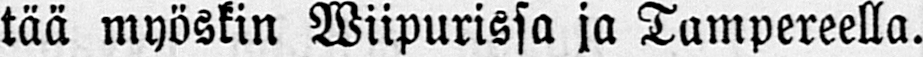tää myöskin Wiipurissa ja Tampereella.
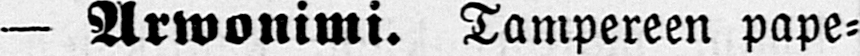— Arwonimi. Tampereen pape-
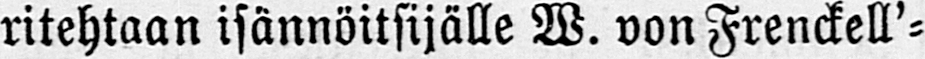ritehtaan isännöitsijälle W. von Frenckell'-
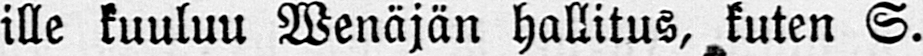ille kuuluu Wenäjän hallitus, kuten S.
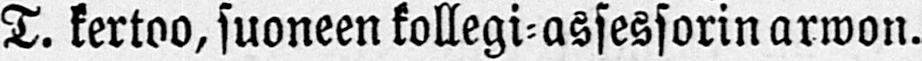T. kertoo, suoneen kollegi-assessorin arwon.
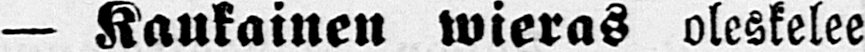— Kaukainen wieras oleskelee
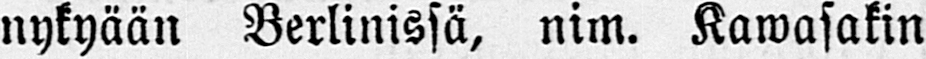nykyään Berlinissä, nim. Kawasakin
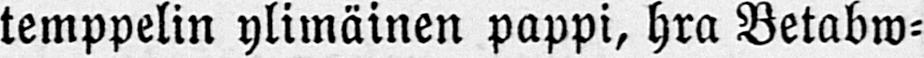temppelin ylimäinen pappi, hra Betabw-
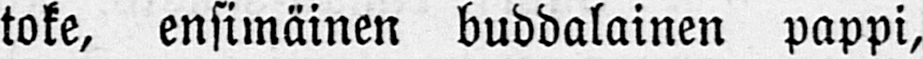toke, ensimäinen buddalainen pappi,
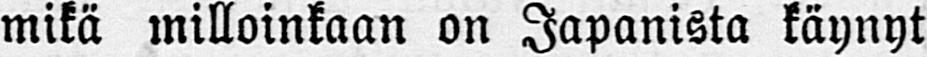mikä milloinkaan on Japanista käynyt
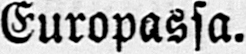Europassa.
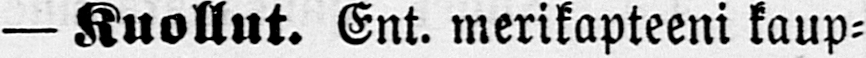— Kuollut. Ent. merikapteeni kaup-
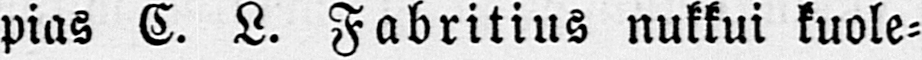pias C. L. Fabritius nukkui kuole-
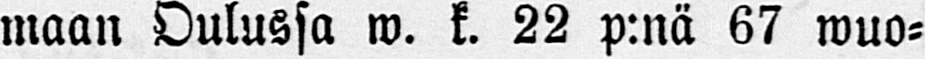maan Oulussa w. k. 22 p:nä 67 wuo-
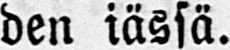den iässä.
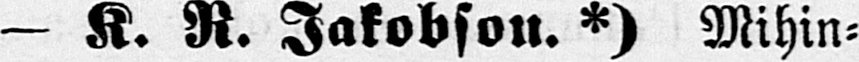— K. R. Jakobson. *) Mihin-
